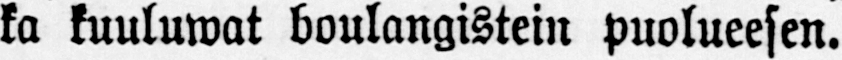ka kuuluwat boulangistein puolueesen.
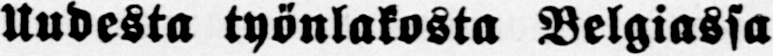Uudesta työnlakosta Belgiassa
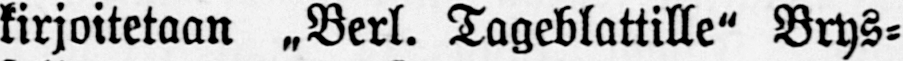kirjoitetaan „Berl. Tageblattille" Brys-
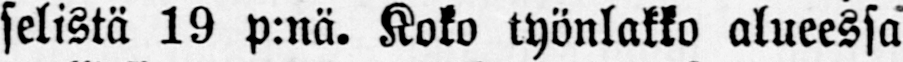selistä 19 p:nä. Koko työnlakko alueessa
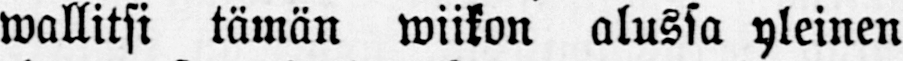wallitsi tämän wiikon alussa yleinen
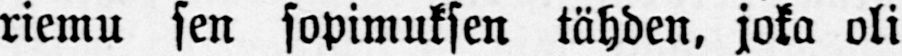riemu sen sopimuksen tähden, joka oli
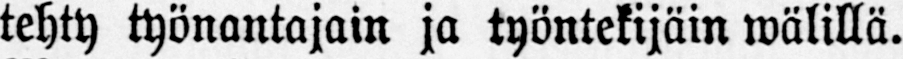tehty työnantajain ja työntekijäin wälillä.
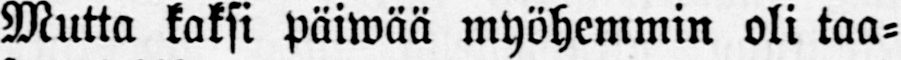Mutta kaksi päiwää myöhemmin oli taa-
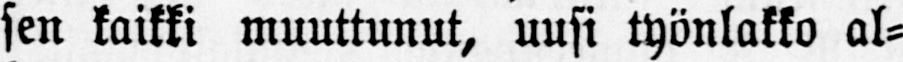sen kaikki muuttunut, uusi työnlakko al-
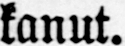kanut.
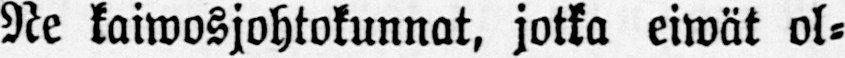Ne kaiwosjohtokunnat, jotka eiwät ol-
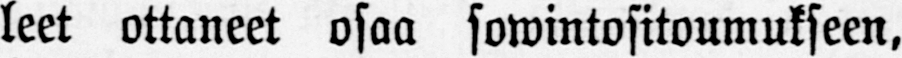leet ottaneet osaa sowintositoumukseen.
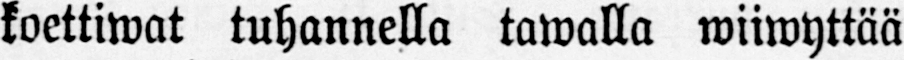koettiwat tuhannella tawalla wiiwyttää
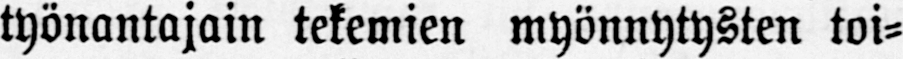työnantajain tekemien myönnytysten toi-
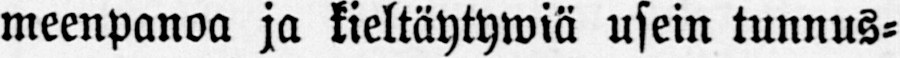meenpanoa ja kieltäytywiä usein tunnus-
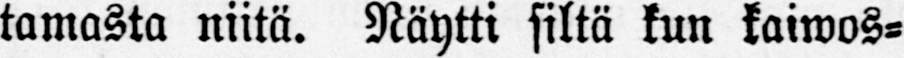tamasta niitä. Näytti siltä kun kaiwos-
